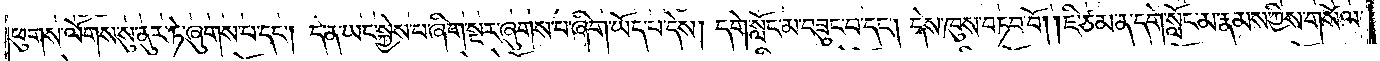ཕུགས་ལོགས་སུ་ནུར་ཏེ་ཞུགས་པ་དང༌། དེ་ན་ཡང་སྐྱེས་པ་ཞིག་སྔར་ཞུགས་པ་ཞིག་ཡོད་པ་དེས། དགེ་སློང་མ་བཟུང་བ་དང༌། དེས་ཁས་བཏབ་བོ། །ཇི་ཙམ་ན་དགེ་སློང་མ་རྣམས་ཀྱིས་གསོལ་
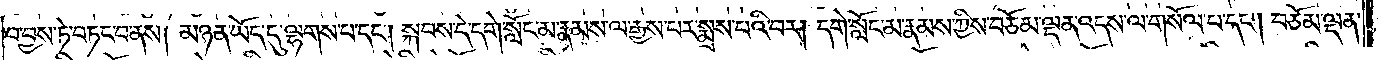བ་བྱས་ཏེ་བཏང་བ་ནས། མཉན་ཡོད་དུ་ལྷགས་མ་དང༌། སྐབས་དེ་དགེ་སློང་མ་རྣམས་ལ་རྒྱས་པར་སྨྲས་པའི་བར། དགེ་སློང་མ་རྣམས་ཀྱིས་བཅོམ་ལྡན་འདས་ལ་གསོལ་པ་དང༌། བཅོམ་ལྡན་
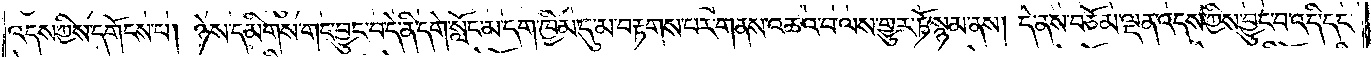འདས་ཀྱིས་དགོངས་པ། ཉེས་དམིགས་གང་བྱུང་བ་དེ་ནི་དགེ་སློང་མ་དག་ཁྱིམ་དུ་མ་བརྟགས་པར་གནས་འཆའ་བ་ལས་གྱུར་ཏོ་སྙམ་ནས། དེ་ནས་བཅོམ་ལྡན་འདས་ཀྱིས་བྱུང་བ་འདི་དང་
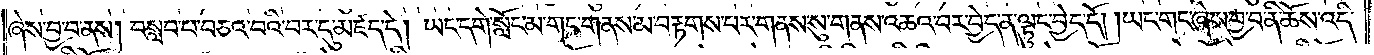ཞེས་བྱ་བ་ནས། བསླབ་པ་བཅའ་བའི་བར་དུ་མཛད་དེ། ཡང་དགེ་སློང་མ་གང་གནས་མ་བརྟགས་པར་གནས་སུ་གནས་འཆའ་བར་བྱེད་ན་ལྟུང་བྱེད་དོ། །ཡང་གང་ཞེས་བྱ་བ་ནི་ཆོས་འདི་
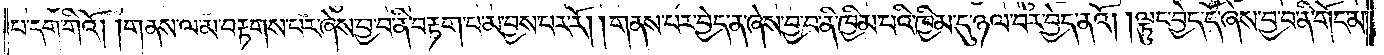པ་དག་གིའོ། །གནས་ལ་མ་བརྟགས་པར་ཞེས་བྱ་བ་ནི་བརྟག་པ་མ་བྱས་པར་རོ། །གནས་པར་བྱེད་ན་ཞེས་བྱ་བ་ནི་ཁྱིམ་པའི་ཁྱིམ་དུ་ཉལ་བར་བྱེད་ནའོ། །ལྟུང་བྱེད་དོ་ཞེས་བྱ་བ་ནི་གོང་མ་
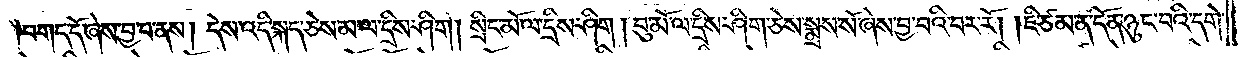བགད་དོ་ཞེས་བྱ་བ་ནས། དེས་འདི་སྐད་ཅེས་མ་ལ་དྲིས་ཤིག །སྲིང་མོ་ལ་དྲིས་ཤིག །བུ་མོ་ལ་དྲིས་ཤིག་ཅེས་སྨྲས་སོ་ཞེས་བྱ་བའི་བར་རོ། །ཇི་ཙམ་ན་དོན་ཉུང་བའི་དགེ་
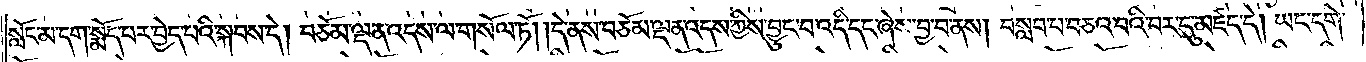སློང་མ་དག་སྨོད་པར་བྱེད་པའི་སྐབས་དེ། བཅོམ་ལྡན་འདས་ལ་གསོལ་ཏོ། །དེ་ནས་བཅོམ་ལྡན་འདས་ཀྱིས་བྱུང་བ་འདི་དང་ཞེས་བྱ་བ་ནས། བསླབ་པ་བཅའ་བའི་བར་དུ་མཛད་དེ། ཡང་དགེ་
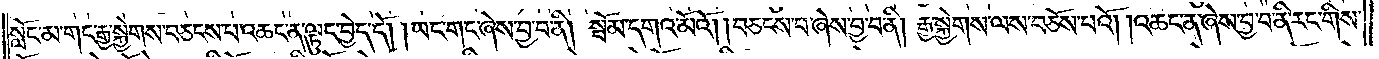སློང་མ་གང་རྒྱ་སྐྱེགས་བཅངས་པ་འཆང་ན་ལྟུང་བྱེད་དོ། །ཡང་གང་ཞེས་བྱ་བ་ནི། སྦོམ་དགའ་མོའོ། །བཅངས་པ་ཞེས་བྱ་བ་ནི། རྒྱ་སྐྱེགས་ལས་བཅོས་པའོ། །འཆང་ན་ཞེས་བྱ་བ་ནི་རང་གིས་
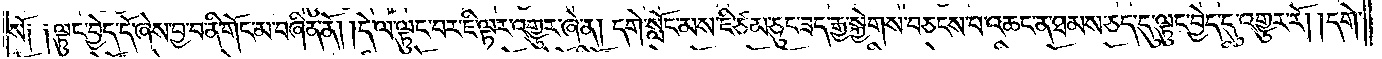སོ༑ ༑ལྟུང་བྱེད་དོ་ཞེས་བྱ་བ་ནི་གོང་མ་བཞིན་ནོ། །དེ་ལ་ལྟུང་བར་ཇི་ལྟར་འགྱུར་ཞེ་ན། དགེ་སློང་མས་ཇི་ཙམ་ཅུང་ཟད་རྒྱ་སྐྱེགས་བཅངས་པ་འཆང་ན་ཐམས་ཅད་དུ་ལྟུང་བྱེད་དུ་འགྱུར་རོ། །དགེ་
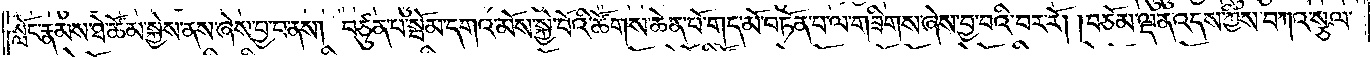སློང་རྣམས་ཐེ་ཚོམ་སྐྱེས་ནས་ཞེས་བྱ་བ་ནས། བཙུན་པ་སྦོམ་དགའ་མོས་སྐྱེ་བོའི་ཚོགས་ཆེན་པོ་གད་མོ་བཏོན་པ་ལ་གཟིགས་ཞེས་བྱ་བའི་བར་རོ། །བཅོམ་ལྡན་འདས་ཀྱིས་བཀའ་སྩལ་
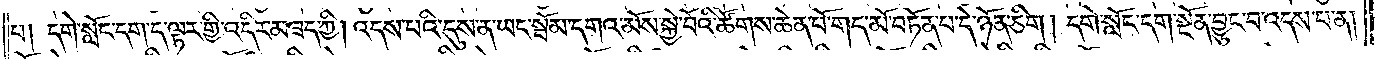པ། དགེ་སློང་དག་ད་ལྟར་གྱི་འདིར་མ་ཟད་ཀྱི། འདས་པའི་དུས་ན་ཡང་སྦོམ་དགའ་མོས་སྐྱེ་བོའི་ཚོགས་ཆེན་པོ་གད་མོ་བཏོན་པ་དེ་ཉོན་ཅིག །དགེ་སློང་དག་སྔོན་བྱུང་བ་འདས་པ་ན།
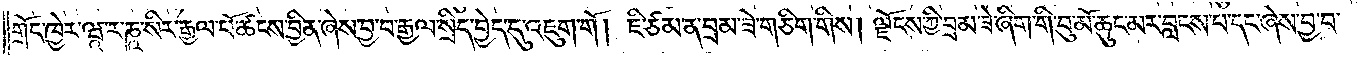གྲོང་ཁྱེར་ཝཱ་ར་ཎཱ་སིར་རྒྱལ་པོ་ཚངས་བྱིན་ཞེས་བྱ་བ་རྒྱལ་སྲིད་བྱེད་དུ་འཇུག་གོ། ཇི་ཙམ་ན་བྲམ་ཟེ་གཅིག་གིས། ལྗོངས་ཀྱི་བྲམ་ཟེ་ཞིག་གི་བུ་མོ་ཆུང་མར་བླངས་པ་དང་ཞེས་བྱ་བ་
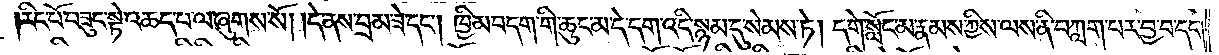།རིང་པོ་བཟུང་སྟེ་འཆད་པ་ལ་ཞུགས་སོ། །དེ་ནས་བྲམ་ཟེ་དང༌། ཁྱིམ་བདག་གི་ཆུང་མ་དེ་དག་འདི་སྙམ་དུ་སེམས་ཏེ། དགེ་སློང་མ་རྣམས་ཀྱིས་ལས་ནི་བཀླག་པར་བྱ་བ་དང༌།
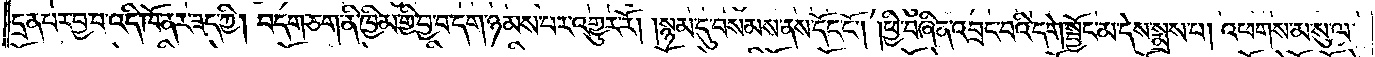དྲན་པར་བྱ་བ་འདི་ཁོ་ནར་ཟད་ཀྱི། བདག་ཅག་ནི་ཁྱིམ་གྱི་བྱ་བ་དག་ཉམས་པར་འགྱུར་རོ། །སྙམ་དུ་བསམས་ནས་དོང་ངོ༌། །ཕྱི་བཞིན་འབྲང་བའི་དགེ་སྦྱོང་མ་དེས་སྨྲས་པ། འཕགས་མ་སུ་ལ་
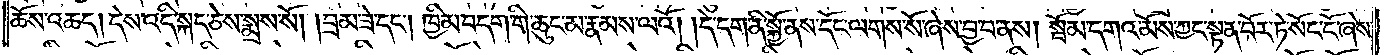ཆོས་འཆད། དེས་འདི་སྐད་ཅེས་སྨྲས་སོ། །བྲམ་ཟེ་དང༌། ཁྱིམ་བདག་གི་ཆུང་མ་རྣམས་ལའོ། །དེ་དག་ནི་སྐྱོ་ནས་དོང་ལགས་སོ་ཞེས་བྱ་བ་ནས། སྦོམ་དགའ་མོས་ཀྱང་སྟན་བོར་ཏེ་སོང་ངོ་ཞེས་
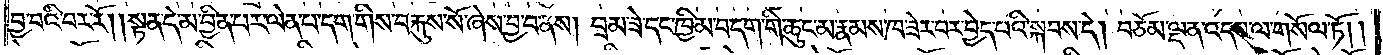བྱ་བའི་བར་རོ། །སྟན་དེ་མ་བྱིན་པར་ལེན་པ་དག་གིས་བརྐུས་སོ་ཞེས་བྱ་བ་ནས། བྲམ་ཟེ་དང་ཁྱིམ་བདག་གི་ཆུང་མ་རྣམས་ཁ་ཟེར་བར་བྱེད་པའི་སྐབས་དེ། བཅོམ་ལྡན་འདས་ལ་གསོལ་ཏོ། །
